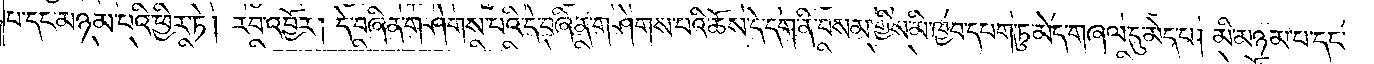པ་དང་མཉམ་པའི་ཕྱིར་ཏེ། རབ་འབྱོར། དེ་བཞིན་གཤེགས་པའི་དེ་བཞིན་གཤེགས་པའི་ཆོས་དེ་དག་ནི་བསམ་གྱིས་མི་ཁྱབ་དཔག་ཏུ་མེད་གཞལ་དུ་མེད་པ། མི་མཉམ་པ་དང་
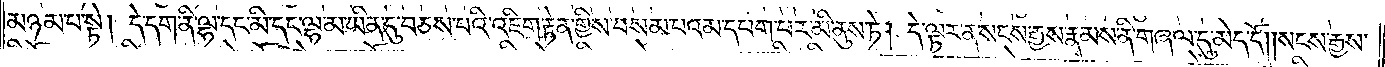མཉམ་པ་སྟེ། དེ་དག་ནི་ལྷ་དང་མི་དང་ལྷ་མ་ཡིན་དུ་བཅས་པའི་འཇིག་རྟེན་གྱིས་བསམ་པའམ་དཔག་པར་མི་ནུས་ཏེ། དེ་ལྟར་ན་སངས་རྒྱས་རྣམས་ནི་གཞལ་དུ་མེད་དོ། །སངས་རྒྱས་
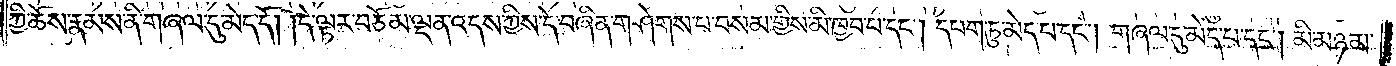ཀྱི་ཆོས་རྣམས་ནི་གཞལ་དུ་མེད་དོ། །དེ་ལྟར་བཅོམ་ལྡན་འདས་ཀྱིས་དེ་བཞིན་གཤེགས་པ་བསམ་གྱིས་མི་ཁྱབ་པ་དང༌། དཔག་ཏུ་མེད་པ་དང༌། གཞལ་དུ་མེད་པ་དང༌། མི་མཉམ་
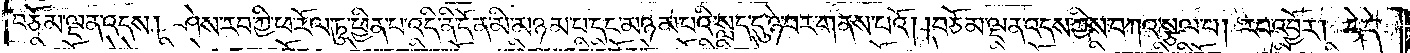བཅོམ་ལྡན་འདས། ཤེས་རབ་ཀྱི་ཕ་རོལ་ཏུ་ཕྱིན་པ་འདི་ནི་དོན་མི་མཉམ་པ་དང་མཉམ་པའི་སླད་དུ་ཉེ་བར་གནས་པའོ། །བཅོམ་ལྡན་འདས་ཀྱིས་བཀའ་སྩལ་པ། རབ་འབྱོར། དེ་དེ་
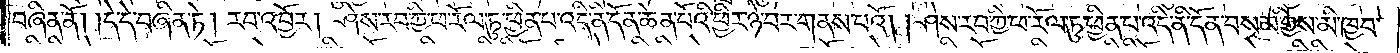བཞིན་ནོ། དེ་དེ་བཞིན་ཏེ། རབ་འབྱོར། ཤེས་རབ་ཀྱི་ཕ་རོལ་ཏུ་ཕྱིན་པ་འདི་ནི་དོན་ཆེན་པོའི་ཕྱིར་ཉེ་བར་གནས་པའོ། །ཤེས་རབ་ཀྱི་ཕ་རོལ་ཏུ་ཕྱིན་པ་འདི་ནི་དོན་བསམ་གྱིས་མི་ཁྱབ་
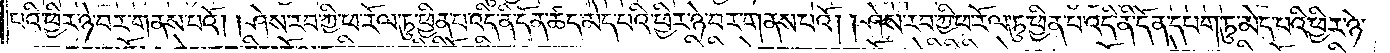པའི་ཕྱིར་ཉེ་བར་གནས་པའོ། །ཤེས་རབ་ཀྱི་ཕ་རོལ་ཏུ་ཕྱིན་པ་འདི་ནི་དོན་ཚད་མེད་པའི་ཕྱིར་ཉེ་བར་གནས་པའོ། །ཤེས་རབ་ཀྱི་ཕ་རོལ་ཏུ་ཕྱིན་པ་འདི་ནི་དོན་དཔག་ཏུ་མེད་པའི་ཕྱིར་ཉེ་
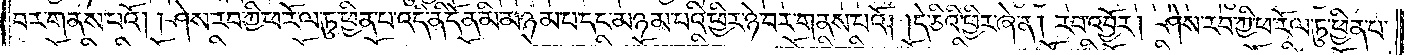བར་གནས་པའོ། །ཤེས་རབ་ཀྱི་ཕ་རོལ་ཏུ་ཕྱིན་པ་འདི་ནི་དོན་མི་མཉམ་པ་དང་མཉམ་པའི་ཕྱིར་ཉེ་བར་གནས་པའོ། །དེ་ཅིའི་ཕྱིར་ཞེ་ན། རབ་འབྱོར། ཤེས་རབ་ཀྱི་ཕ་རོལ་ཏུ་ཕྱིན་པ་
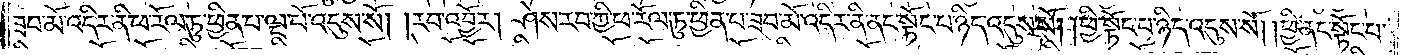ཟབ་མོ་འདིར་ནི་ཕ་རོལ་ཏུ་ཕྱིན་པ་ལྔ་པོ་འདུས་སོ། །རབ་འབྱོར། ཤེས་རབ་ཀྱི་ཕ་རོལ་ཏུ་ཕྱིན་པ་ཟབ་མོ་འདིར་ནི་ནང་སྟོང་པ་ཉིད་འདུས་སོ། །ཕྱི་སྟོང་པ་ཉིད་འདུས་སོ། །ཕྱི་ནང་སྟོང་པ་
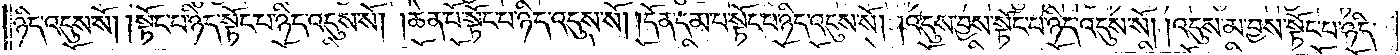ཉིད་འདུས་སོ། །སྟོང་པ་ཉིད་སྟོང་པ་ཉིད་འདུས་སོ། །ཆེན་པོ་སྟོང་པ་ཉིད་འདུས་སོ། །དོན་དམ་པ་སྟོང་པ་ཉིད་འདུས་སོ།  །འདུས་བྱས་སྟོང་པ་ཉིད་འདུས་སོ། །འདུས་མ་བྱས་སྟོང་པ་ ཉིད་
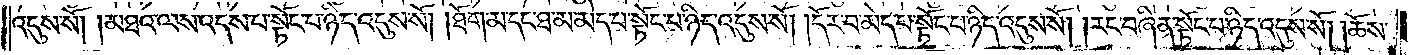འདུས་སོ། །མཐའ་ལས་འདས་པ་སྟོང་པ་ཉིད་འདུས་སོ། །ཐོག་མ་དང་ཐ་མ་མེད་པ་སྟོང་པ་ཉིད་འདུས་སོ། །དོར་བ་མེད་པ་སྟོང་པ་ཉིད་འདུས་སོ། །རང་བཞིན་སྟོང་པ་ཉིད་འདུས་སོ། །ཆོས་
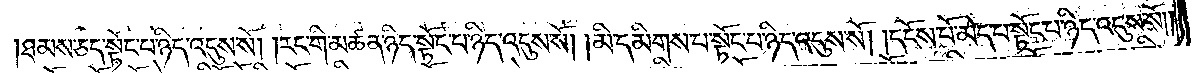ཐམས་ཅད་སྟོང་པ་ཉིད་འདུས་སོ། །རང་གི་མཚན་ཉིད་སྟོང་པ་ཉིད་འདུས་སོ། །མི་དམིགས་པ་སྟོང་པ་ཉིད་འདུས་སོ། །དངོས་པོ་མེད་པ་སྟོང་པ་ཉིད་འདུས་སོ། །
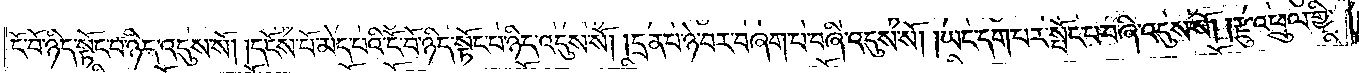ངོ་བོ་ཉིད་སྟོང་པ་ཉིད་འདུས་སོ། །དངོས་པོ་མེད་པའི་ངོ་བོ་ཉིད་སྟོང་པ་ཉིད་འདུས་སོ། །དྲན་པ་ཉེ་བར་བཞག་པ་བཞི་འདུས་སོ། །ཡང་དག་པར་སྤོང་བ་བཞི་འདུས་སོ། །རྫུ་འཕྲུལ་གྱི་
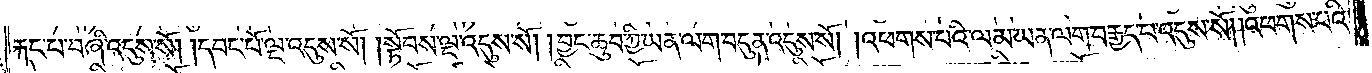རྐང་པ་བཞི་འདུས་སོ། །དབང་པོ་ལྔ་འདུས་སོ། །སྟོབས་ལྔ་འདུས་སོ། །བྱང་ཆུབ་ཀྱི་ཡན་ལག་བདུན་འདུས་སོ། །འཕགས་པའི་ལམ་ཡན་ལག་བརྒྱད་པ་འདུས་སོ། །འཕགས་པའི་
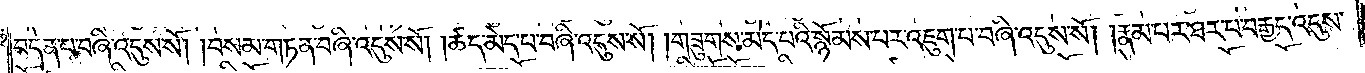བདེན་པ་བཞི་འདུས་སོ། །བསམ་གཏན་བཞི་འདུས་སོ། །ཚད་མེད་པ་བཞི་འདུས་སོ། །གཟུགས་མེད་པའི་སྙོམས་པར་འཇུག་པ་བཞི་འདུས་སོ། །རྣམ་པར་ཐར་པ་བརྒྱད་འདུས་
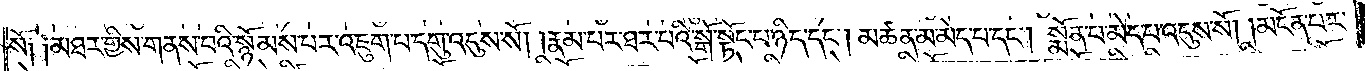སོ༑ ༑མཐར་གྱིས་གནས་པའི་སྙོམས་པར་འཇུག་པ་དགུ་འདུས་སོ། །རྣམ་པར་ཐར་པའི་སྒོ་སྟོང་པ་ཉིད་དང༌། མཚན་མ་མེད་པ་དང༌། སྨོན་པ་མེད་པ་འདུས་སོ། །མངོན་པར་
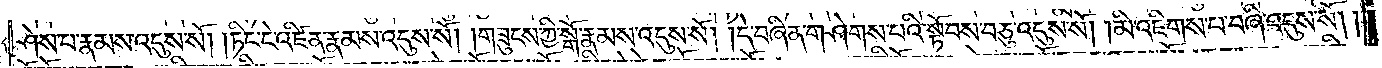ཤེས་པ་རྣམས་འདུས་སོ། །ཏིང་ངེ་འཛིན་རྣམས་འདུས་སོ། །གཟུངས་ཀྱི་སྒོ་རྣམས་འདུས་སོ། །དེ་བཞིན་གཤེགས་པའི་སྟོབས་བཅུ་འདུས་སོ། །མི་འཇིགས་པ་བཞི་འདུས་སོ། །
